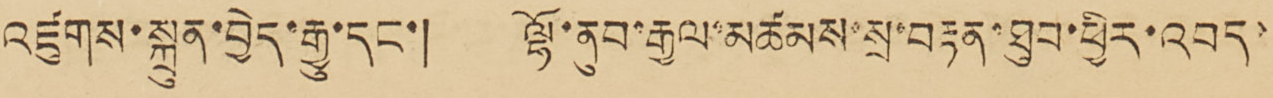འཛུགས་སྐྲུན་བྱེད་རྒྱུ་དང་། ལྷོ་ནུབ་རྒྱལ་མཚམས་སྲ་བརྟན་ཐུབ་ཕྱིར་འབད་
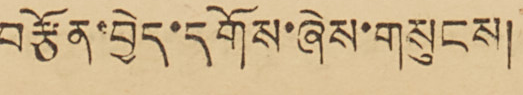བརྩོན་བྱེད་དགོས་ཞེས་གསུངས།
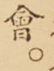會。
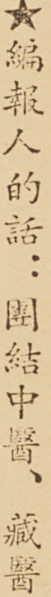★編報人的話：團結中醫、藏醫
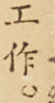工作。
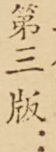第三版：
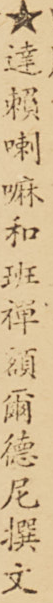★達賴喇嘛和班禪額爾德尼撰文
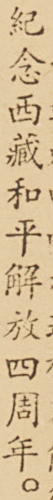紀念西藏和平解放四周年。
